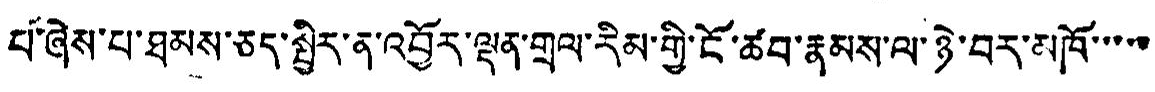པ་ཞེས་པ་ཐམས་ཅད་སྤྱིར་ན་འབྱོར་ལྡན་གྲལ་རིམ་གྱི་ངོ་ཚབ་རྣམས་ལ་ཉེ་བར་མཁོ་་་་་
